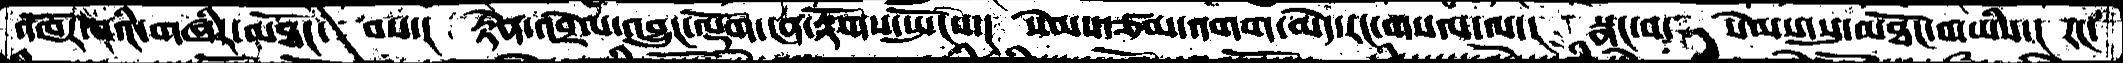འཁོར་བའི་གཞིར་མཐོང་   བས་།  རྟེན་འབྲེལ་འབྱུང་ལྡོག་ངན་རྟོགས་སྤོངས་།  སེམས་ཙམ་འགག་མེད་རང་གསལ་ལ་།  སྣང་བ་    སེམས་སུ་མཐོང་བ་ཡིས་།  རང་
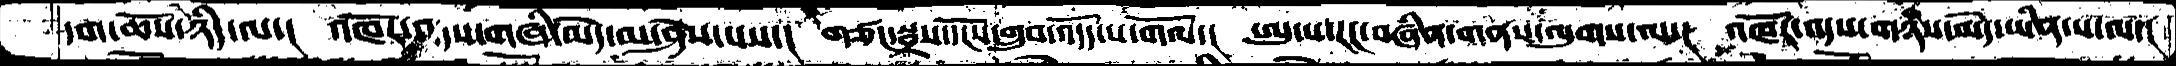དག་ཆོས་ཉིད་ལ་།   འཁོར་འདས་གཞི་མེད་མ་ཤེས་པས་།  གཙང་སྦྲས་དངོས་གྲུབ་འདོད་པ་གོལ་།  ཨུ་པ་རང་བཞིན་གནས་ལུགས་ལ་།  འཁོར་འདས་གཉིས་མེད་ཡིན་པ་ལ་།
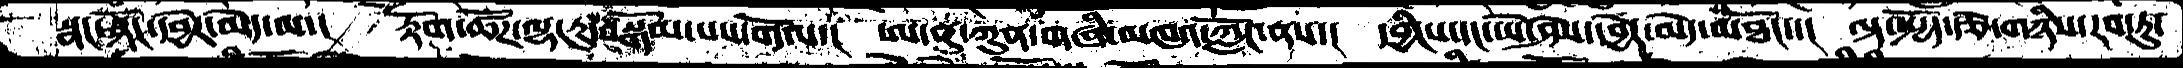སྣང་སྟོང་དབྱེར་མེད་ལ་།  རྟོག་ཚོཌ་ལྷ་རུ་བསྒོམ་པས་གོལ་།  ཨ་ནུ་ཀུན་གཞི་མཁའ་ཀློང་ནས་།  དབྱིངས་དང་ཡེ་ཤེས་དབྱེར་མེད་མཐོང་་།  ལྟ་སྤྱོད་རྩེ་གཉིས་རབ་ཏུ་
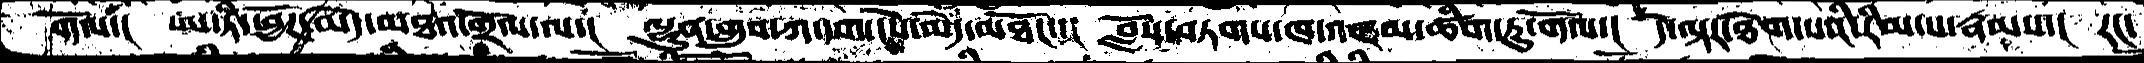གོལ་།  ཨ་ཏི་ཕྱོཌ་མེད་མཐའ་གྲོལ་ལ་།  ལྷུན་གྲུབ་ཀ་དག་ངེས་མེད་མཐོང་་།  བློས་བཏགས་ཁ་འཇམ་ཚིག་ཏུ་གོལ་།  དེ་ལྟར་ཐེག་པའི་རིམ་པ་རྣམས་།  རང་
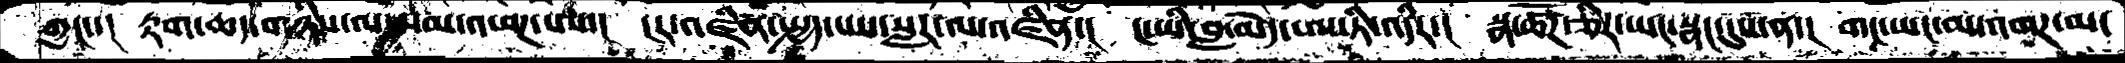ཀྱང་་།  རྟག་ཆད་གཉིས་ལ་མ་འཕཌ་པས་།  ངར་འཛིན་སྤྱད་པས་སླར་ལ་འཛིན་།  ང་ཡི་བླ་མེད་ཨ་ཏི་འདིར་།  སྣ་ཚོཌ་ཅིར་ཡང་སྣང་དུས་ན་།  གང་ཡང་མ་འགཌ་མ་
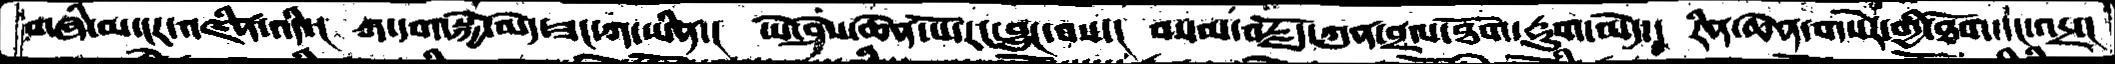གཞི་མ་ངར་འཛིན་འདི་།  ཀ་དག་སྐྱེ་མེད་ཟང་ཀ་ཡིན་།  ཡེ་ཤེས་ཆེན་པོ་རང་བྱུང་བས་།  བསམ་བརྗོད་ཀུན་བྲལ་ཐོག་རྡུག་མེད་།  རིན་ཆེན་གསེར་གྱི་ཐོག་དང་འདྲ་།
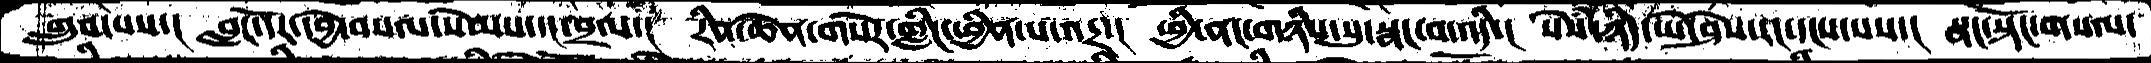གྲུབ་པས་།  བླང་དོར་དབྱེ་བསལ་སེམས་དང་བྲལ་།  རིན་ཆེན་གསེར་གླིང་ཕྱིན་པ་འདྲ་།  ཕྱི་ནང་གཉིས་སུ་སྣང་བ་འདི་།  སེསཾ་ཉིད་ཡེ་ཤེས་རང་དངས་པས་།  སྣང་སྟོང་གསལ་
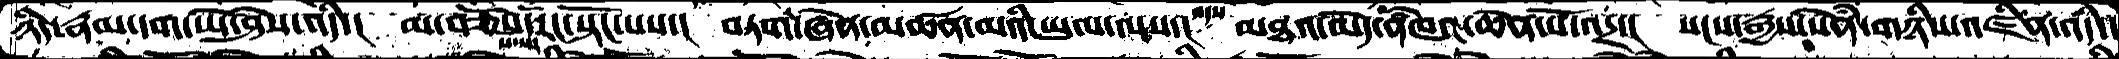ཉིད་རྣམ་དག་ཡེ་ཤེས་འདི་། མ་བཅོས་སོ་སོར་རང་སྟོང་པས་། བཏག་ཞེན་མཚན་མའི་ཡུལ་ལས་འདས་། མཐའ་མེད་ནཾཁའ་ཆེན་པོ་འདྲ་། སངས་རྒྱས་སེཾན་གཉིས་འཛིན་འདི་།
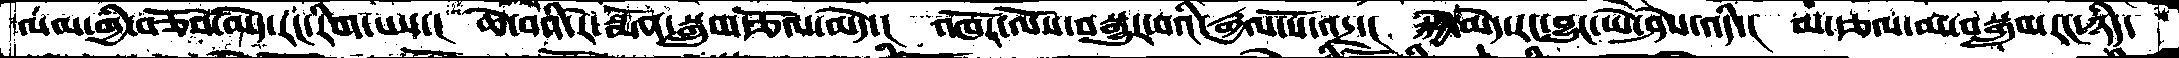ལམ་གྱི་བཅོས་མེད་རང་རིག་པས་།  ཆེ་བའི་རེ་སྨོན་སྒྲུབ་རྩོལ་མེད་།  འཁོར་ལོས་བསྒྱུར་བའི་རྒྱལ་པོ་འདྲ་།  སྐྱེ་མེད་རང་བྱུང་ཡེ་ཤེས་འདི་།  མ་རྩལ་མ་བསྒྲུབ་རང་ཉིད་
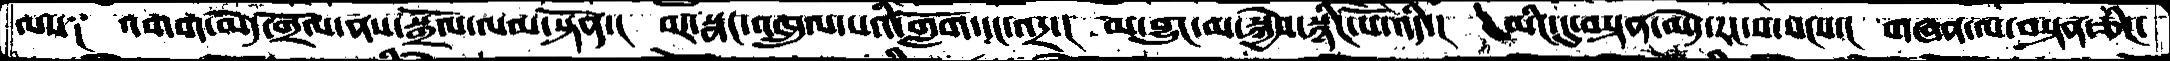ལས༑  འགག་མེད་གྲོལ་ནས་སྒྲོལ་ལམ་སྟོན་།  བར་སྣང་འཁྲུལ་པའི་གློག་དང་འདྲ་།  མ་བྱུང་མ་སྐྱེས་སྙིང་པོ་འདི་།  མིང་དུ་བསྟན་མེད་རང་ས་སངས་།  གཞན་ལ་བསྟན་ཅིང་
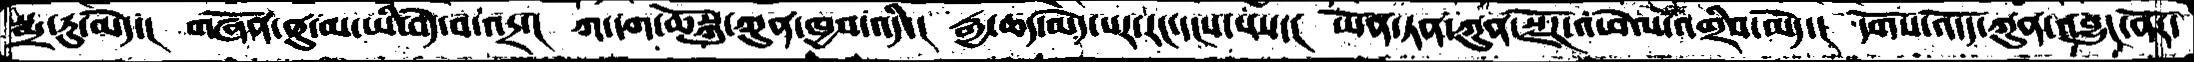སྨྲ་རུ་མེད་།  གཞོན་ནུ་མ་ཡི་བདེ་བ་འདྲ་།  ཀ་དག་ཆོསྐུ་ཀུན་ཁྱབ་འདི་།  རྒྱ་ཆད་མེད་པར་རང་དངས་པས་།  ཡོན་ཏན་ཀུན་སྫོཌ་འཕེལ་འགྲིབ་མེད་།  དགོས་འདོད་ཀུན་འབྱུང་ནོར་
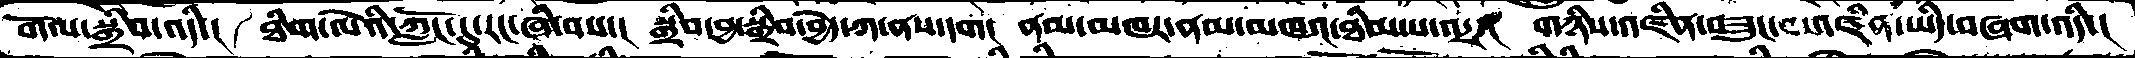གོལ་སྒྲིབ་འདི་།  ཐིག་ལེའི་ཀློང་དུ་རང་བཞིན་བས་།  སྒྲིབ་བྱ་སྒྲིབ་བྱེད་ཀ་ནས་དག།  ནམ་མཁར་ནམ་མཁའ་ཐིམ་པ་འདྲ་།  གཉིས་འཛིན་བཟུང་བས་འཛིན་ཡིད་བཞག་འདི་།
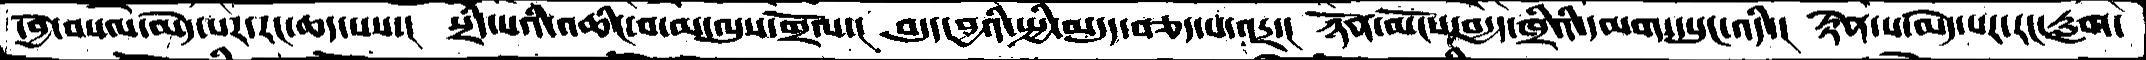དབྱེ་བསལ་མེད་པར་རང་ཆད་པས་།  སྲིད་པའི་འཆིང་བ་མ་ལུས་གྲོལ་།  བདུད་བྱའི་སྤྱི་མདུད་བཅད་པ་འདྲ་།  ཉོན་མོངས་བདྱད་ཁྲིའི་དམག་དཔུང་འདི་།  རྟེན་པ་མེད་པར་རང་རླག་
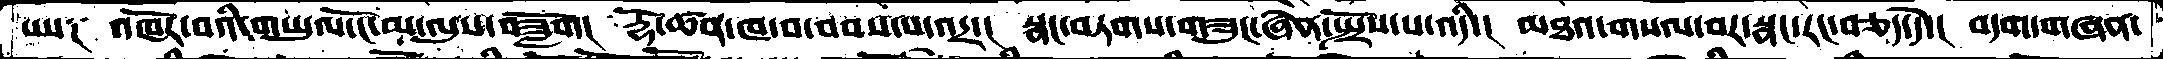པས༑  འཁོར་བའི་གཡུལ་ངོ་མ་ལུས་བཟློག།  རྡོ་ཚན་ཁ་བ་བབས་པ་འདྲ་།  སྣང་བཏགས་གཟུང་ཞེན་སྤྲོས་པ་འདི་།  མཐའ་གསལ་བར་སྣང་རབ་བཅད་དེ་།  བདག་གཞན་
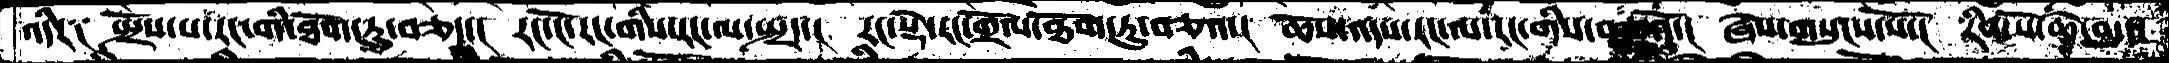འདིར༑ སྤྲོས་པ་རང་གི་ཐོག་ཏུ་བཅད་། རང་ངོ་རང་གི་རང་ལ་སྤྲད་། རང་སྡེ་རང་གྲོལ་ཐོག་ཏུ་བཅའ་། ཆོས་འདས་རང་ལ་རང་གིས་བཅའོ་། ཞེས་གསུངས་སོ་། རིན་པོ་ཆེ་བདུན
